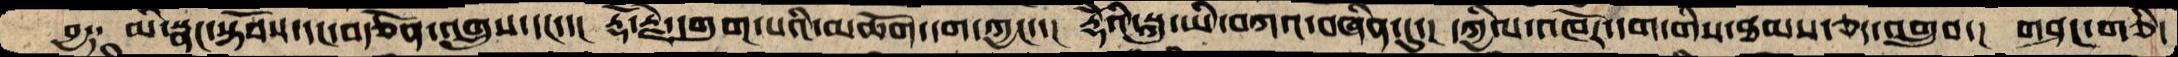བྱ༑   མི་སྣང་སྟོབས་དང་བརྩོན་འགྲུས་དང་་།  རྡོ་རྗེ་དགུག་པའི་མཆོག་དག་ཀྱང་་།  རྡོེའི་སྐུ་ཡི་བཀའ་བཞིན་དུ་།  དཀྱིལ་འཁོར་དག་གིས་ཐམས་ཅད་འགྲུབ་།  གཤང་གཅི་
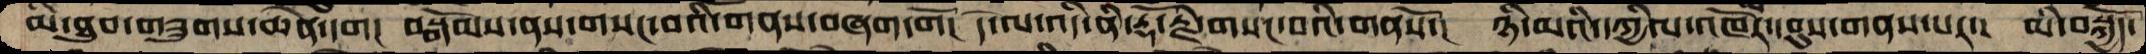མི་ཐུབ་གཟུགས་ཆེན་དག།  བསྒོམས་ནས་གསང་བའི་གནས་བཞག་གོ།  དེ་ལ་འདི་ནི་རྡོ་རྗེ་གསང་བའི་གནསོ་།  ཉི་མའི་དཀྱིལ་འཁོར་དབུས་གནས་པར་།  མི་བསྐྱོད་
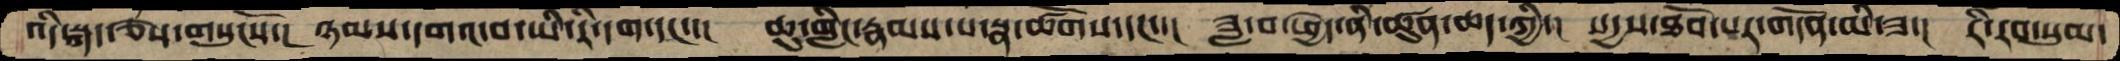འདི་སྐད་ཅེས་གསུངསོ་།  ཉམས་དགའ་བ་ཡི་རི་དག་དང་་།  ཆུ་གླིང་རྣམས་པ་སྣ་ཚོགས་དང་་།  ཟླ་བ་ཕྱེད་ནི་ཚུན་ཆད་ཀྱི་།  སདྱས་ཐོབ་པར་གདོན་མི་ཟ་།  རི་རབ་སུམ་
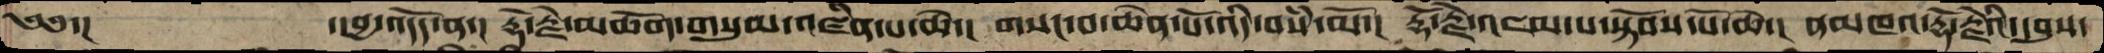༄༅་།    ་།བྱ་འདོད་ན་།  རྡོ་རྗེ་མཆོག་གསུམ་འཛིན་པ་ཆེ་།  གསང་བ་ཆེན་པོ་འདི་བསཾ་མོ་།  རྡོ་རྗེ་འཇམ་པ་སྟོབས་པོ་ཆེ་།  ནམ་མཁའ་རྡོ་རྗེའི་དབུས་
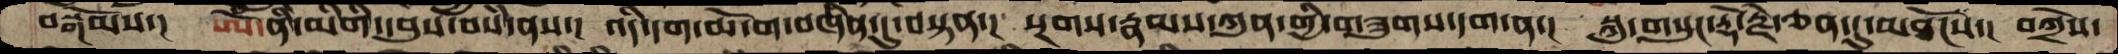བསྒོམས་།  ཨོཾ་ནི་མིགི་དབུས་བསཾ་ནས་།  འདི་དག་ཆོ་ག་བཞིན་དུ་བསྟན་།  སྔགས་རྣམས་ཀུན་གྱི་གཟུགས་དག་ན་།  སྐུ་གསུང་རྡོ་རྗེ་ཅན་དུ་མཐོངས་།  བཀྲེས་
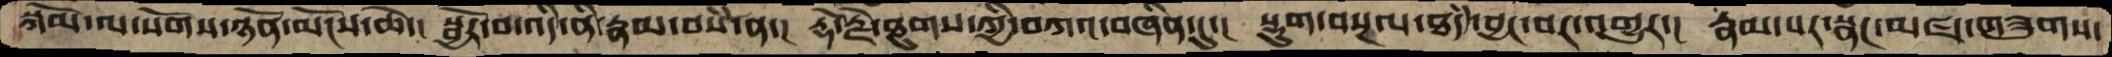སྐོམ་ལ་སོགས་ཉོན་མོངས་ཆེ་།  སྦྱོར་བ་འདི་ནི་རྣམ་བསཾ་ན་།  རྡོ་རྗེ་ཐུགས་ཀྱི་བཀའ་བཞིན་དུ་།  སྡུག་བསྔལ་ཐདཾ་བྱང་བར་འགྱུར་།  རྣམ་པར་སྣང་མཛད་གཟུགས་
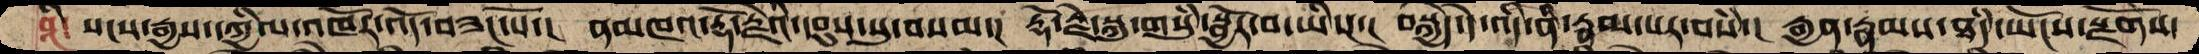བཱི་  སངས་རྒྱས་དཀྱིལ་འཁོར་འོད་བཟང་པོ་།  ནམཁའ་རྡོ་རྗེའི་དབུས་སུ་བསམ་།  རྡོ་རྗེ་སྐུ་གསུཾ་སྦྱོར་བ་ཡིས་།  བསྐྱེད་དེ་འདི་ནི་རྣམ་པར་བསཾ་།  རྒྱན་རྣམས་ཐདཾ་ཡོངས་སྫོགས་
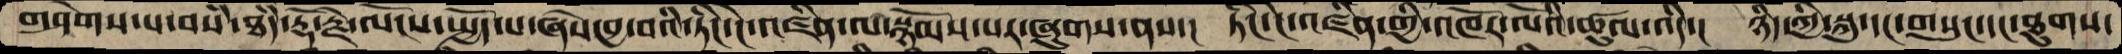གཤེགས་པ་བསཾ་ཐདཾ་རྡོ་རྗེ་ལོངས་སྤྱོད་པ་ཞེས་བྱ་བའི་ཏིང་ངེ་འཛིན་ལ་སྙོམས་པར་ཞུགས་ནས་།  ཏིང་ངེ་འཛིན་གྱི་འཁོར་ལོའི་ཚུལ་འདི་།  ཉིད་ཀྱི་སྐུ་དང་གསུང་དང་ཐུགས་
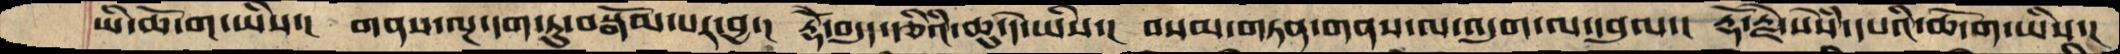ཡི་ཆོ་ག་ཡིས་།  གནས་ལྔ་དག་ཏུ་བསྒོམ་པར་བྱ་།  རྡོེ་བདུད་རྩིའི་ཆུ་དེ་ཡིས་།  བསམ་གཏན་གནས་ལ་འདུག་ལ་དབུལ་།  རྡོ་རྗེ་སེཾས་དཔའི་ཆོ་ག་ཡིས་།
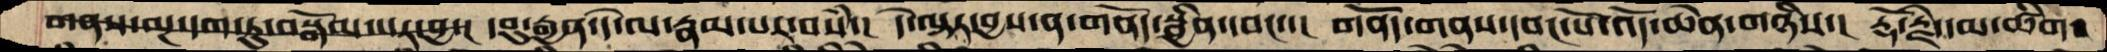གནས་ལྔ་དག་ཏུ་བསྒོམ་པར་བྱ་།  དབུ་རྒྱན་དེ་ལ་རྣམ་པར་བསཾ་།  དེ་ལྟར་བྱས་ན་གནོད་སྦྱིན་དབང་་།  གནདོ་གནས་དབང་པོ་འོད་ཆེན་གཉིས་།  རྡོ་རྗེ་དམ་ཚིག་
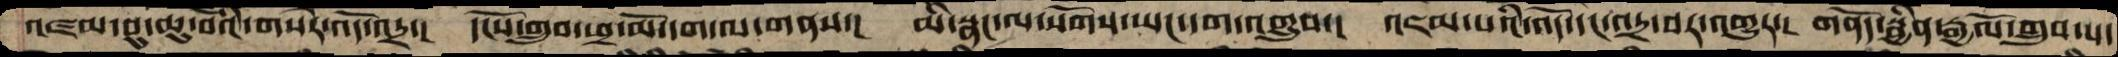འཛམ་བུ་ཆུ་བོའི་གསེར་འོད་འདྲ་།  དངོས་གྲུབ་ཕྲ་མོ་དག་ལ་གནས་།  མི་སྣང་ལ་སོགས་ཡང་དག་འགྲུབ་།  འཇམ་པའི་འོད་དང་འདྲ་བར་འགྱུར་།  གནོད་སྦྱིན་རྒྱལོ་གྲུབ་པ་
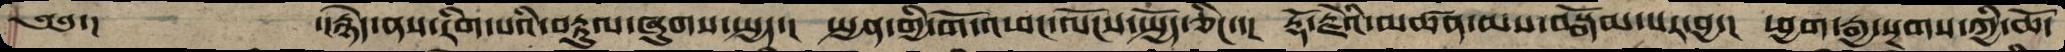༄༅་།    ་།རྙེད་ནས་རིག་པའི་བརྟུལ་ཞུགས་སྤྱད་།  སྤྱན་གྱི་གོ་འཕང་ལོངས་སྤྱོད་ཅིང་་།  རྡོ་རྗེའི་མཚན་མས་བསྒོམ་པར་བྱ་།  ཕྱག་རྒྱ་སྔགས་ཀྱི་ཆོ་
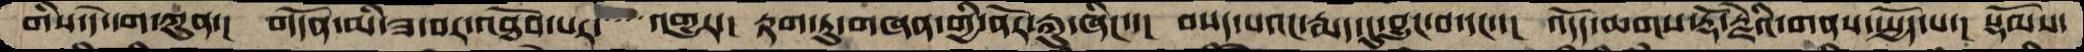གིས་དེ་དག་ཀུན་།  གདོན་མི་ཟ་བར་འཐོབ་པར་  འགྱུར་།  རྟག་ཏུ་གཞན་གྱི་ནོར་རྐུ་ཞིང་་།  བསད་པའང་རྨད་དུ་བྱུང་བ་དང་་།  འདོད་ཆགས་རྡོ་རྗེའི་གནས་སྤྱོད་པ་།  སྡོམས་
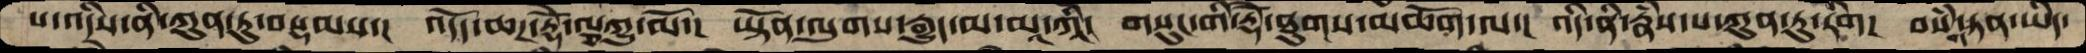པ་འདིས་ནི་ཀུན་ཏུ་བསྡམས་།  འདོད་ཆཌ་རྡོེ་ལྕཀྱུ་མོ་། ཡྟོན་ལུགས་རྒྱུད་མ་མཱ་ཀཱི། གསུང་གི་རྡོེ་ཐུགས་མཆོག་ལ་། འདི་ནི་རྣཾས་པ་ཀུན་ཏུ་རིག། བསཾ་གཏན་ཡིད་
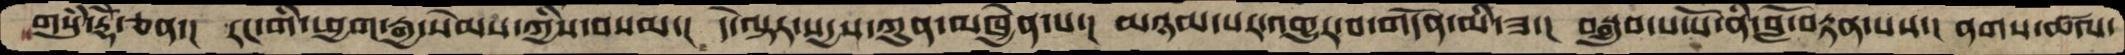གསུཾ་རྡོེ་ཅན་།  རང་གི་ཕྱག་རྒྱ་སེམས་ཀྱིས་བསམ་།  དེ་ལྟར་སདྱས་ཀུན་མཁྱེན་པ་།  མཉམ་པར་འགྱུར་བ་གདོན་མི་ཟ་།  བསྒྲུབ་པ་པོ་ནི་བློ་བརྟན་པས་།  ནགས་ཚལ་
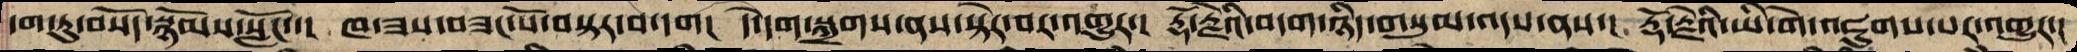དག་ཏུ་བསོད་སྙོམས་སློང་།  ཁ་ཟས་བཟང་པོ་བསྟར་བ་དག།  དེ་དག་སྐྲགས་ནས་སྟེར་བར་འགྱུར་།  རྡོ་རྗེའི་བདག་ཉིད་གསུམ་འདས་ནས་།  རྡོ་རྗེའི་ཡི་གེ་འཇུགས་པར་འགྱུར་།
